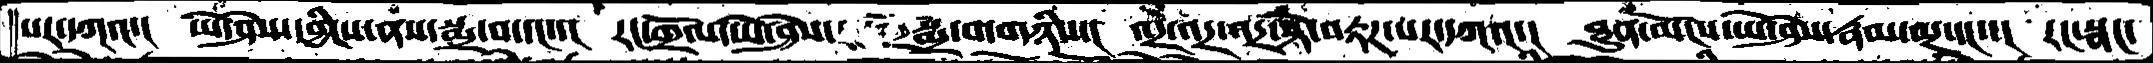པར་དཀའ་།   ཡེ་ཤེས་དབྱིངས་ནས་སྨྲ་བ་དང་་།   རང་གྲོལ་ཡེ་ཤེས་  སྨྲ་བ་གཉིས་།  འདྲ་འདྲ་འདྲ་སྟེ་བརྟཌ་པར་དཀའ་།  ཐུན་མོངས་ཡེ་ཤེས་རྣམ་ལྔ་དང་།  རང་སྣང་
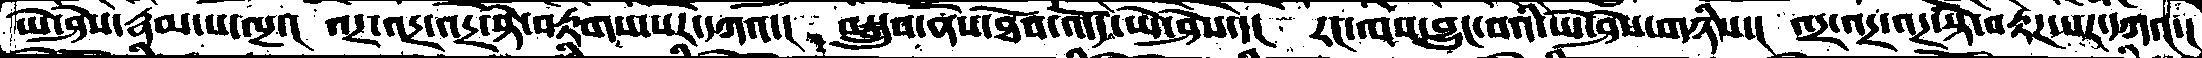ཡེ་ཤེས་རྣམ་པ་ལྔ་།  འདྲ་འདྲ་འདྲ་སྟེ་བརྟགས་པར་དཀའ་།  བསྒྲུབ་ནས་ཐོབ་འདོད་ཡེ་ཤེས་དེ།  རང་ལས་བྱུང་བའི་ཡེ་ཤེས་གཉིས་།  འདྲ་འདྲ་འདྲ་སྟེ་བརྟཌ་པར་དཀའ་།
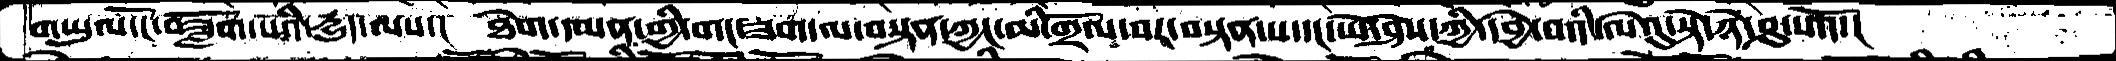གཡུལ་ངོ་བཟློག་པོའི་དྱུད་ལས་།  ཐེག་དམན་གྱི་གང་ཟག་ལ་བསྟན་ཀྱང་མི་གྲོལ་བར་བསྟན་པ་དང་ཡེ་ཤེས་ཀྱི་དབྱེ་བའི་ལེའུ་སྟེ་ཉེ་ཤུ་པའོ་།
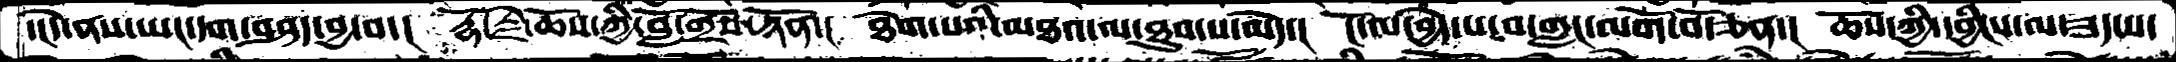་།དེ་ནས་ཡང་དག་བཤད་བྱ་བ་།  རྡོ་རྗེ་ཆོས་ཀྱི་བློ་གྲོས་ཉོན་།  ཐེག་པའི་མཐའ་ལ་ཐུབ་པ་མེད་།  ངོ་ལ་བྱེད་པ་བ་གླང་མགོ་བོ་ཅན་།  ཆོས་ཀྱི་དབྱིངས་ལ་ཟད་པ་
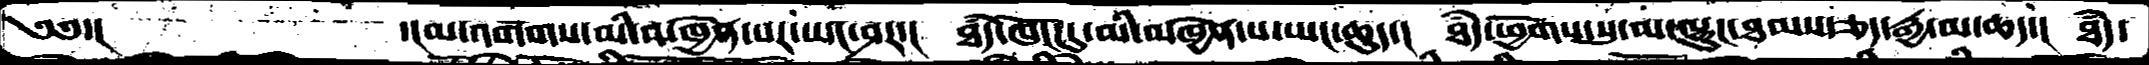༄༅་།         ་།མ་འགགས་མི་མཁྱེན་པར་ཡང་ཤར་།   ཐཾད་ཁོང་དུ་མི་མཁྱེན་པ་ཡང་ཆུད་།  ཐཾད་ཕྱོགས་སུ་མ་ལྷུང་ཐམས་ཅད་རྒྱ་མ་ཆད་།  ཐཾད་
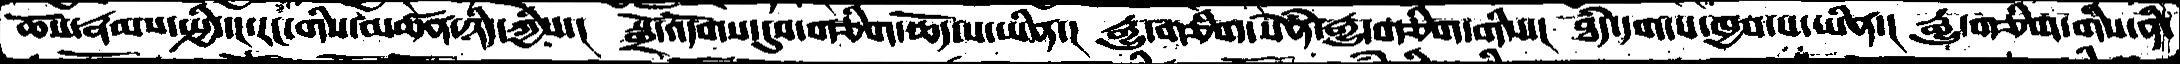ཆོས་རྣམས་སྤྱི་དང་རང་གིས་མཚན་ཉིད་ཀྱིས་།  སྒྲོ་འདོགས་དུས་གཅིག་ཆོད་པ་ཡིན་།  རྒྱུ་གཅིག་སེཾན་རྒྱུ་གཅིག་གིས་།  ཐཾད་དག་པ་ཁྱབ་པ་ཡིན་།   རྒྱུ་གཅིག་གིས་ནི་
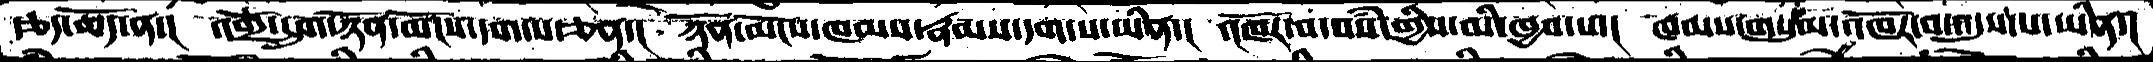རྩད་ཆོད་ན་།   འགྲོ་དྲུག་ཉོན་མོངས་དག་པ་ཅན་།  ཉོན་མོངས་ཁམས་རྣམས་དག་པ་ཡིན་།   འཁོར་བ་བསཾ་གྱིས་མི་ཁྱབ་པ་།   ཁམས་གསུམ་འཁོར་བ་འདུས་པ་ཡིན་།
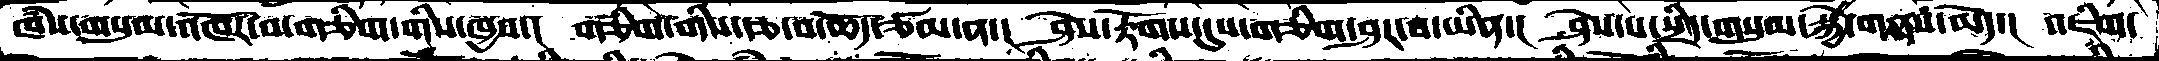ཁཾས་གསུམ་འཁོར་བ་གཅིག་གིས་ཁྱབ་།  གཅིག་གིས་རྩ་བ་ཆོད་ཙམ་ན་།  ཤེས་རྟོགས་དུས་གཅིག་ཤར་བ་ཡིན་།  ཤེས་པ་སྲིད་གསུམ་སྐྱེ་གནས་མེད་།  འཇིག་
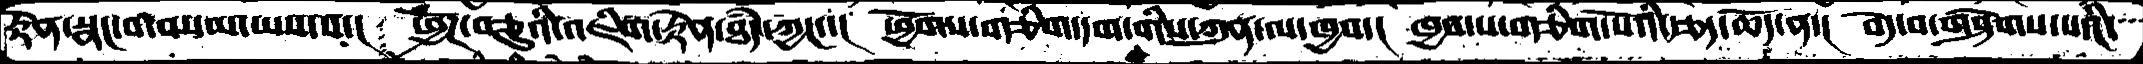རྟེན་སྣང་བ་བསམ་ཡས་པ་།  ཕྱོཌ་བཅུའི་འཇིག་རྟེན་ཐཾད་ཀྱང་་།  ཕྱོགས་གཅིག་དག་གིས་ཀུན་ལ་ཁྱབ་།  ཁྱབ་པ་གཅིག་པོའི་རྩད་ཆོད་ན་།  བདེ་བ་གཤེགས་པའི་
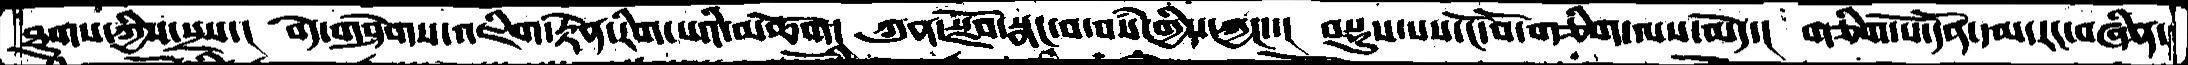ཐུགས་ཀྱིས་སྲས་།   བདེ་གཤེགས་འཇིག་རྟེན་རིག་པའི་མཆོག།  ཀུན་སྫོབ་སྣང་བ་བསཾ་གྱིས་ཀྱང་་།  བསྡུས་པས་ངོ་བོ་གཅིག་ལས་མེད་།  གཅིག་པོ་དོན་དམ་རང་བཞིན་
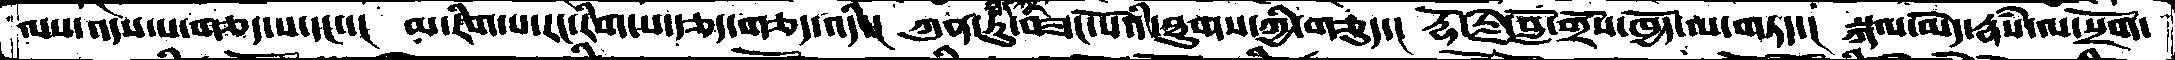ལས་འདས་པ་གཅད་པ་དང་་།  མ་རིག་པ་རང་རིག་པ་རྩད་གཅད་འདི་།  ཀུན་ཏུ་བཟང་པོའི་ཐུགས་ཀྱི་གཅུད་།   རྡོ་རྗེ་བློ་གྲོས་ཁྱོད་ལ་གཏད་།  སྐལ་མེད་རྣཾས་ལ་སྲོག་
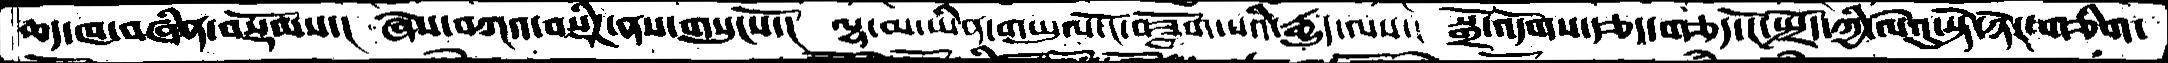ཆད་ཁ་བཞིན་བསྡོམས་།  ཞེས་བཀའ་བསྡིཌ་ནས་གསུངསོ་།  ལྷ་མ་ཡིན་གཡུལ་ངོ་བཟློག་པའི་རྒྱུད་ལས་།  སྒྲོ་འདོགས་རྩད་གཅད་ངོ་སྤྲོད་ཀྱི་ལེའུ་སྟེ་ཉེར་གཅིག་
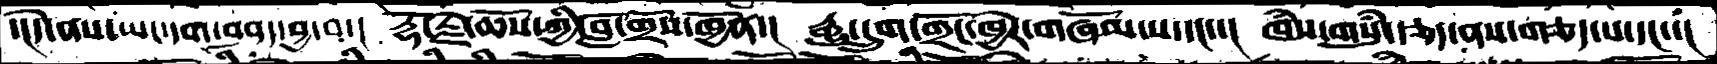་།དེ་ནས་ཡང་དག་བཤད་བྱ་བ་།  རྡོ་རྗེ་ཆོས་ཀྱི་བློ་གྲོས་ཁྱོན་།  རྒྱུ་དྲུག་གྲོང་ཁྱེར་གཞོམ་པ་དང་་།  ཁཾས་གསུཾ་རྩད་ནས་གཅད་པ་དང་་།
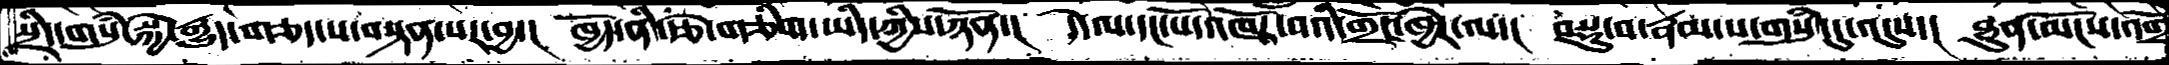སྲིད་གསུཾ་སྐྱེ་རྒྱུད་གཅད་པ་བསྟན་པར་བྱ་།  ཁྱོད་ནི་རྩེ་གཅིག་ཡིད་ཀྱིས་ཉོན་།  དེ་ལ་དང་པོ་འཁོར་བའི་གྲོང་ཁྱེར་ལ་།  བསྡུ་བ་རྣམ་པ་གསུཾ་དུ་འདུས་།  ཐུན་མོངས་འགྲོ
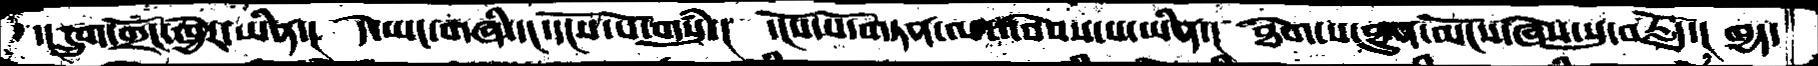་།དྲུག་གྲོང་ཁྱེར་ཡིན་།  དེ་ཡང་གཞི་དང་དངོས་པོ་གསུཾ་།   དངོས་པོ་གཏན་ལ་འབེབས་པ་ཡིན་།   ཐེག་པ་ཐུན་མོངས་ཞེས་སུ་བརྗོད་།  ཁྱད་
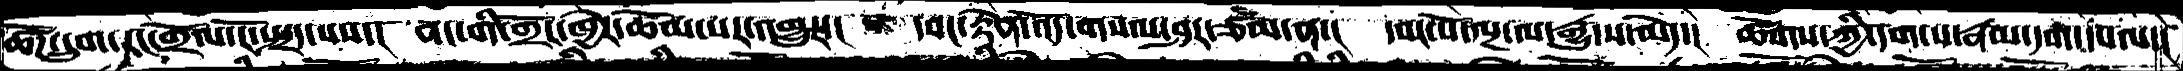ཚོཌ་དྲུག་རང་གྲོལ་ངོ་སྤྲད་པས་།   ནང་གི་གྲོང་ཁྱེར་ཚོམ་པར་འགྱུར་།  དབང་རྟེན་འོད་གསལ་ཤར་ཙམ་ན་།  དབང་པོ་ལྔ་ལ་རྒྱུ་ས་མེད་།  ཚོགས་ཀྱི་དག་པ་རྣམ་དག་དཔལ་།
